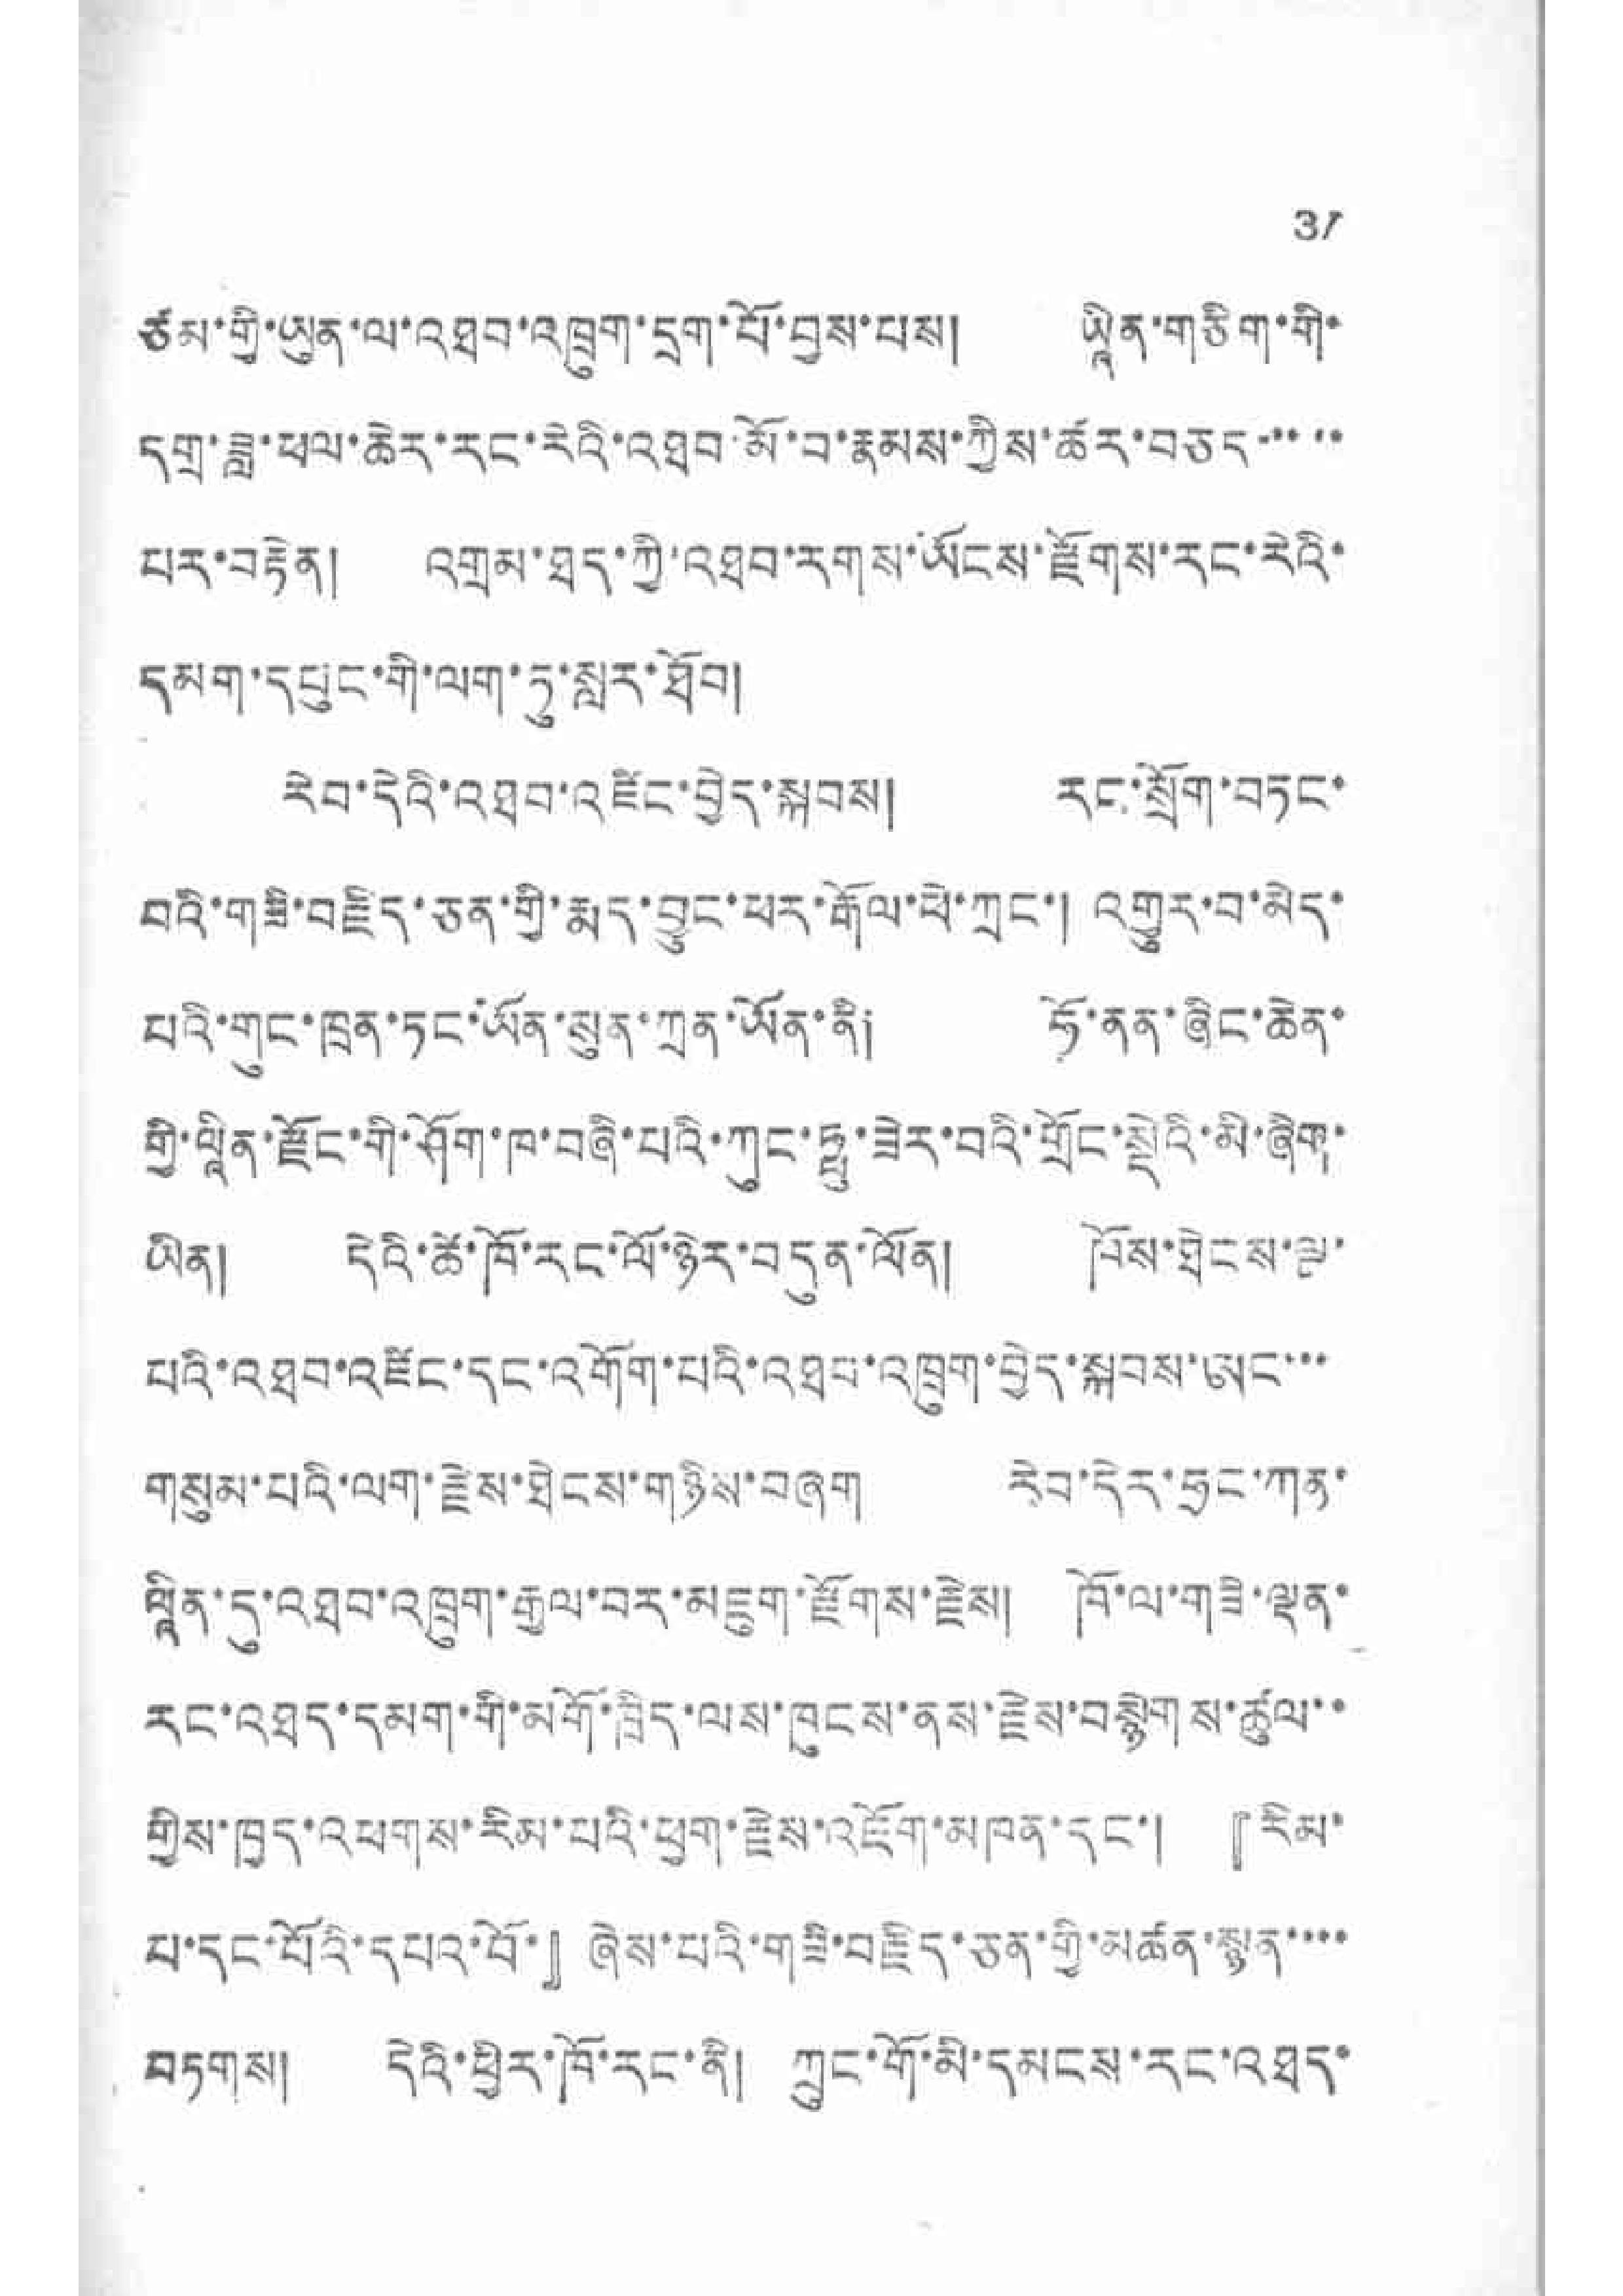31
ཙམ་གྱི་ཡུན་ལ་འཐབ་འཁྲུག་དྲག་པོ་བྱས་པས། ཡཱིན་གཅིག་གི་
དགྲ་ཟླ་ཕལ་ཆེར་རང་རེའི་འཐབ་མོ་བ་རྣམས་ཀྱིས་ཚར་བཅད་་་་་
པར་བརྟེན། འགྲམ་ཐད་ཀྱི་འཐབ་རགས་ཡོངས་རྫོགས་རང་རེའི་
དམག་དཔུང་གི་ལག་ཏུ་སླར་ཐོབ།
རེབ་དེའི་འཐབ་འཛིང་བྱེད་སྐབས། རང་སྲོག་བཏང་
བའི་གཟི་བརྗིད་ཅན་གྱི་རྨད་བྱུང་ཕར་རྒོལ་ཕེ་ཀྲང་། འགྱུར་བ་མེད་
པའི་གུང་ཁྲན་ཏང་ཡོན་སུན་ཀྲན་ཡོན་ནི། ཧོ་ནན་ཞིང་ཆེན་
གྱི་ལཱིན་རྫོང་གི་ཤོག་ཁ་བཞི་བའི་ཀུང་ཧྥུ་ཟེར་བའི་གྲོང་སྡེའི་མི་ཞིག་
ཡིན། དེའི་ཚེ་ཁོ་རང་ལོ་ཉེར་བདུན་ལོན། ཁོས་ཐེངས་ལྔ་
པའི་འཐབ་འཛིང་དང་འགོག་པའི་འཐབ་འཁྲུག་བྱེད་སྐབས་ཨང་་་
གསུམ་པའི་ལག་རྗེས་ཐེངས་གཉིས་བཞག རེབ་དེར་ཧྲང་ཀན་
ལཱིན་དུ་འཐབ་འཁྲུག་རྒྱལ་བར་མཇུག་རྫོགས་རྗེས། ཁོ་ལ་གཟེ་ལྡན་
རང་འཐད་དམག་གི་མགོ་ཁྲིད་ལས་ཁུངས་ནས་རྗེས་བསྙེགས་ཚུལ་་
གྱིས་ཁྱད་འཕགས་རིམ་པའི་ཕྱག་རྗེས་འཇོག་མཁན་དང་། 『རིམ་
པ་དང་པོརི་དཔའ་པོ་』ཞེས་པའི་གཟི་བརྗོད་ཅན་གྱི་མཚན་སྙན་་་་་
བཏགས། དེའི་ཕྱིར་ཁོ་རང་ནི། ཀྲུང་གོ་མི་དམངས་རང་འཐད་
